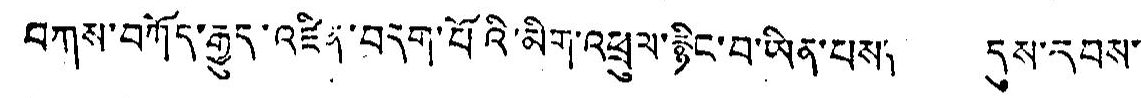བཀས་བཀོད་རྒྱུད་འཛིན་བདག་པོའི་མིག་འཕྲུལ་རྙིང་བ་ཡིན་པས། དུས་རབས་
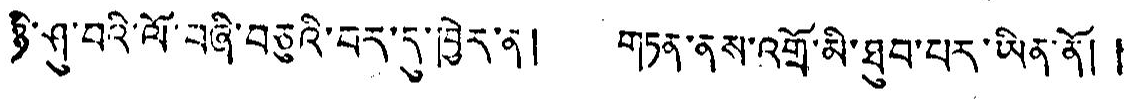ཉི་ཤུ་བའི་ལོ་བཞི་བཅུའི་བར་དུ་ཁྱེར་ན། གཏན་ནས་འགྲོ་མི་ཐུབ་པར་ཡིན་ནོ། །
